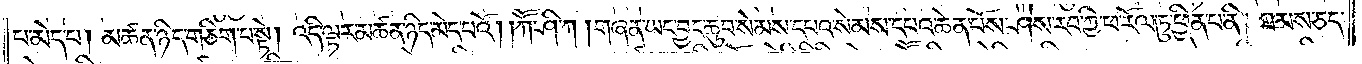པ་མེད་པ། མཚན་ཉིད་གཅིག་པ་སྟེ། འདི་ལྟར་མཚན་ཉིད་མེད་པའོ། །ཀཽ་ཤི་ཀ། གཞན་ཡང་བྱང་ཆུབ་སེམས་དཔའ་སེམས་དཔའ་ཆེན་པོས་ཤེས་རབ་ཀྱི་ཕ་རོལ་ཏུ་ཕྱིན་པ་ནི། ཐམས་ཅད་
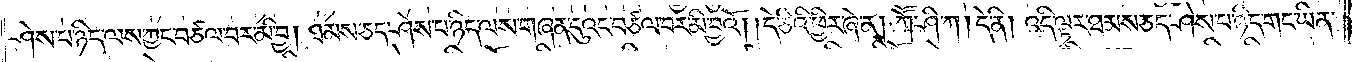ཤེས་པ་ཉིད་ལས་ཀྱང་བཙལ་བར་མི་བྱ། ཐམས་ཅད་ཤེས་པ་ཉིད་ལས་གཞན་དུའང་བཙལ་བར་མི་བྱའོ༎ དེ་ཅིའི་ཕྱིར་ཞེ་ན། ཀཽ་ཤི་ཀ། དེ་ནི། འདི་ལྟར་ཐམས་ཅད་ཤེས་པ་ཉིད་གང་ཡིན་
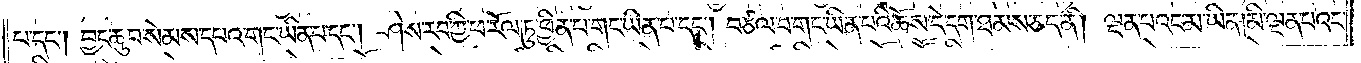པ་དང༌། བྱང་ཆུབ་སེམས་དཔའ་གང་ཡིན་པ་དང༌། ཤེས་རབ་ཀྱི་ཕ་རོལ་ཏུ་ཕྱིན་པ་གང་ཡིན་པ་དང༌། བཙལ་བ་གང་ཡིན་པའི་ཆོས་དེ་དག་ཐམས་ཅད་ནི། ལྡན་པའང་མ་ཡིན། མི་ལྡན་པའང་
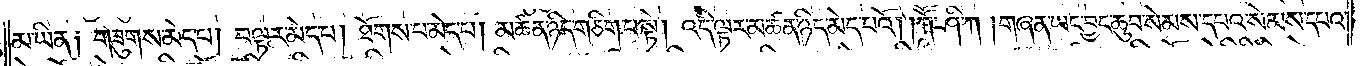མ་ཡིན། གཟུགས་མེད་པ། བལྟར་མེད་པ། ཐོགས་པ་མེད་པ། མཚན་ཉིད་གཅིག་པ་སྟེ། འདི་ལྟར་མཚན་ཉིད་མེད་པའོ། །ཀཽ་ཤི་ཀ །གཞན་ཡང་བྱང་ཆུབ་སེམས་དཔའ་སེམས་དཔའ་
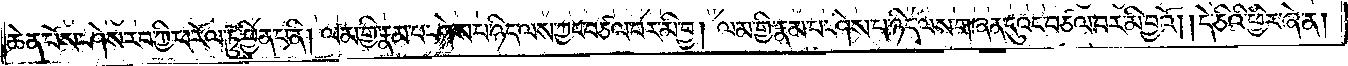ཆེན་པོས་ཤེས་རབ་ཀྱི་ཕ་རོལ་ཏུ་ཕྱིན་པ་ནི། ལམ་གྱི་རྣམ་པར་ཤེས་པ་ཉིད་ལས་ཀྱང་བཙལ་བར་མི་བྱ། ལམ་གྱི་རྣམ་པ་ཤེས་པ་ཉིད་ལས་གཞན་དུའང་བཙལ་བར་མི་བྱའོ། །དེ་ཅིའི་ཕྱིར་ཞེ་ན།
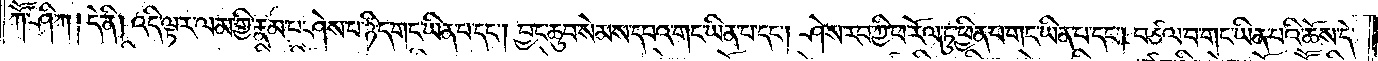ཀཽ་ཤི་ཀ། དེ་ནི། འདི་ལྟར་ལམ་གྱི་རྣམ་པ་ཤེས་པ་ཉིད་གང་ཡིན་པ་དང༌། བྱང་ཆུབ་སེམས་དཔའ་གང་ཡིན་པ་དང༌། ཤེས་རབ་ཀྱི་ཕ་རོལ་ཏུ་ཕྱིན་པ་གང་ཡིན་པ་དང༌། བཙལ་བ་གང་ཡིན་པའི་ཆོས་དེ་
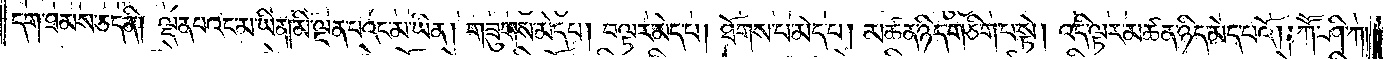དག་ཐམས་ཅད་ནི། ལྡན་པའང་མ་ཡིན། མི་ལྡན་པའང་མ་ཡིན། གཟུགས་མེད་པ། བལྟར་མེད་པ། ཐོགས་པ་མེད་པ། མཚན་ཉིད་གཅིག་པ་སྟེ། འདི་ལྟར་མཚན་ཉིད་མེད་པའོ། །ཀཽ་ཤི་ཀ།
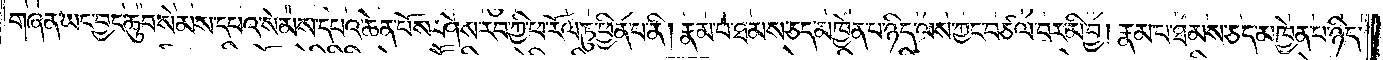གཞན་ཡང་བྱང་ཆུབ་སེམས་དཔའ་སེམས་དཔའ་ཆེན་པོས་ཤེས་རབ་ཀྱི་ཕ་རོལ་ཏུ་ཕྱིན་པ་ནི། རྣམ་པ་ཐམས་ཅད་མཁྱེན་པ་ཉིད་ལས་ཀྱང་བཙལ་བར་མི་བྱ། རྣམ་པ་ཐམས་ཅད་མཁྱེན་པ་ཉིད་
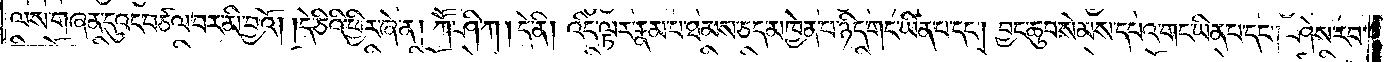ལས་གཞན་དུའང་བཙལ་བར་མི་བྱའོ། །དེ་ཅིའི་ཕྱིར་ཞེ་ན། ཀཽ་ཤི་ཀ། དེ་ནི། འདི་ལྟར་རྣམ་པ་ཐམས་ཅད་མཁྱེན་པ་ཉིད་གང་ཡིན་པ་དང༌། བྱང་ཆུབ་སེམས་དཔའ་གང་ཡིན་པ་དང༌། ཤེས་རབ་
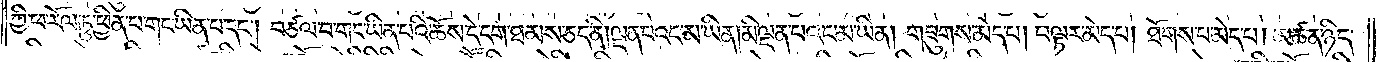ཀྱི་ཕ་རོལ་ཏུ་ཕྱིན་པ་གང་ཡིན་པ་དང༌། བཙལ་བ་གང་ཡིན་པའི་ཆོས་དེ་དག་ཐམས་ཅད་ནི། ལྡན་པའང་མ་ཡིན། མི་ལྡན་པའང་མ་ཡིན། གཟུགས་མེད་པ། བལྟར་མེད་པ། ཐོགས་པ་མེད་པ། མཚན་ཉིད་
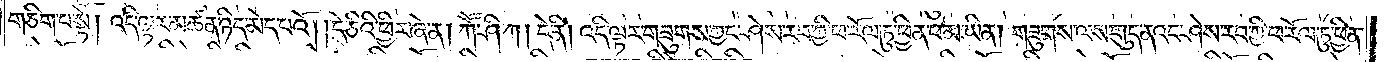གཅིག་པ་སྟེ། འདི་ལྟར་མཚན་ཉིད་མེད་པའོ། །དེ་ཅིའི་ཕྱིར་ཞེ་ན། ཀཽ་ཤི་ཀ། དེ་ནི། འདི་ལྟར་གཟུགས་ཀྱང་ཤེས་རབ་ཀྱི་ཕ་རོལ་ཏུ་ཕྱིན་པ་མ་ཡིན། གཟུགས་ལས་གུད་ནའང་ཤེས་རབ་ཀྱི་ཕ་རོལ་ཏུ་ཕྱིན་
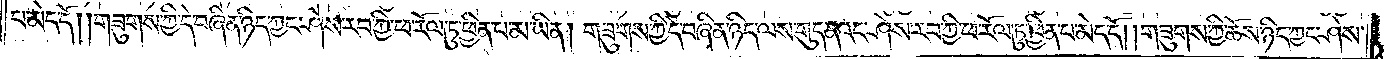པ་མེད་དོ། །གཟུགས་ཀྱི་དེ་བཞིན་ཉིད་ཀྱང་ཤེས་རབ་ཀྱི་ཕ་རོལ་ཏུ་ཕྱིན་པ་མ་ཡིན། གཟུགས་ཀྱི་དེ་བཞིན་ཉིད་ལས་གུད་ནའང་ཤེས་རབ་ཀྱི་ཕ་རོལ་ཏུ་ཕྱིན་པ་མེད་དོ། །གཟུགས་ཀྱི་ཆོས་ཉིད་ཀྱང་ཤེས་
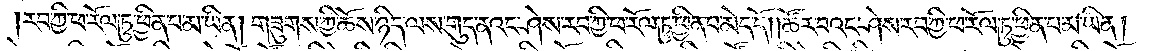རབ་ཀྱི་ཕ་རོལ་ཏུ་ཕྱིན་པ་མ་ཡིན། གཟུགས་ཀྱི་ཆོས་ཉིད་ལས་གུད་ནའང་ཤེས་རབ་ཀྱི་ཕ་རོལ་ཏུ་ཕྱིན་པ་མེད་དོ། །ཚོར་བའང་ཤེས་རབ་ཀྱི་ཕ་རོལ་ཏུ་ཕྱིན་པ་མ་ཡིན།
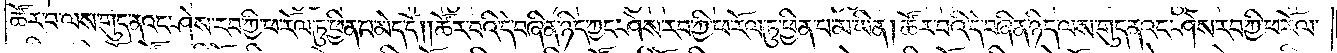ཚོར་བ་ལས་གུད་ནའང་ཤེས་རབ་ཀྱི་ཕ་རོལ་ཏུ་ཕྱིན་པ་མེད་དོ། །ཚོར་བའི་དེ་བཞིན་ཉིད་ཀྱང་ཤེས་རབ་ཀྱི་ཕ་རོལ་ཏུ་ཕྱིན་པ་མ་ཡིན། ཚོར་བའི་དེ་བཞིན་ཉིད་ལས་གུད་ནའང་ཤེས་རབ་ཀྱི་ཕ་རོལ་
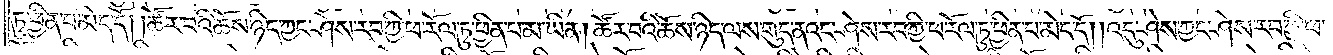ཏུ་ཕྱིན་པ་མེད་དོ། །ཚོར་བའི་ཆོས་ཉིད་ཀྱང་ཤེས་རབ་ཀྱི་ཕ་རོལ་ཏུ་ཕྱིན་པ་མ་ཡིན། ཚོར་བའི་ཆོས་ཉིད་ལས་གུད་ནའང་ཤེས་རབ་ཀྱི་ཕ་རོལ་ཏུ་ཕྱིན་པ་མེད་དོ། །འདུ་ཤེས་ཀྱང་ཤེས་རབ་ཀྱི་ཕ་
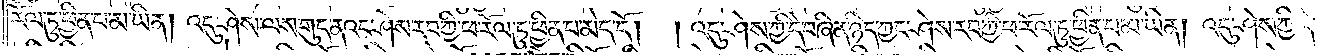རོལ་ཏུ་ཕྱིན་པ་མ་ཡིན། འདུ་ཤེས་ལས་གུད་ནའང་ཤེས་རབ་ཀྱི་ཕ་རོལ་ཏུ་ཕྱིན་པ་མེད་དོ། །འདུ་ཤེས་ཀྱི་དེ་བཞིན་ཉིད་ཀྱང་ཤེས་རབ་ཀྱི་ཕ་རོལ་ཏུ་ཕྱིན་པ་མ་ཡིན། འདུ་ཤེས་ཀྱི་དེ་
